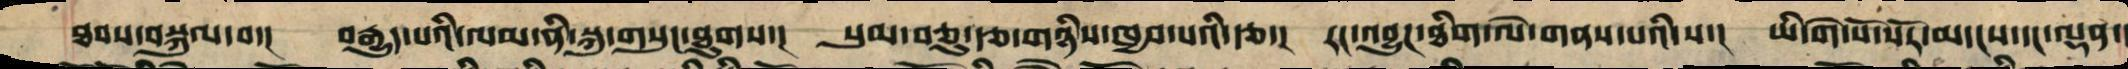ཐབས་བསྐུལ་བ་། བརྒྱུད་པའི་ལམ་ནི་སྐུ་གསུང་ཐུགས་། སུམ་ཅུ་རྩ་གཉིས་ཁྱབ་པའི་རྩ་། རང་འབྱུང་ཐིག་ལེ་གནས་པའི་ས་། ཡི་གེ་སོ་སོ་མདངས་དང་ལྡན་།
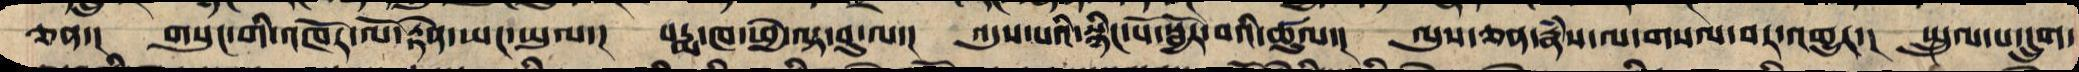ཅན་། གསུང་གི་འཁོར་ལོ་རྟེན་དང་ཡུལ་། པདྨ་ཁ་ཕྱེ་ལྟ་བུ་ལ་། འདུས་པའི་སྙིང་པོ་སྦྱོར་བའི་ཚུལ་། ལུས་ཅན་རྣཾས་གསལ་བར་འགྱུར་།།སྤྲུལ་པ་དྲུག་
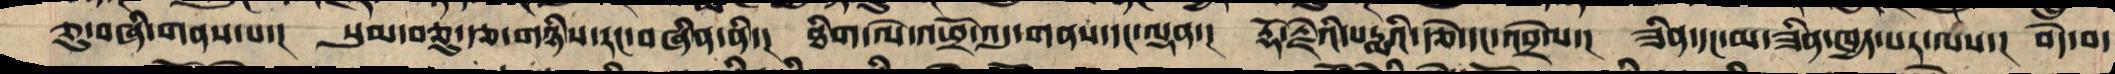ཅུ་བཞི་གནས་པ་། སུམ་ཅུ་རྩ་གཉིས་རང་བཞིན་ནི་། ཐིག་ལེ་འཕྲོ་འདུ་གནས་དང་ལྡན་། རྡོ་རྗེའི་པདྨའི་རྩེ་དང་འབྲེལ་། ཟིན་དང་མ་ཟིན་ཁྱད་པར་ལས་། བདེ་བ་
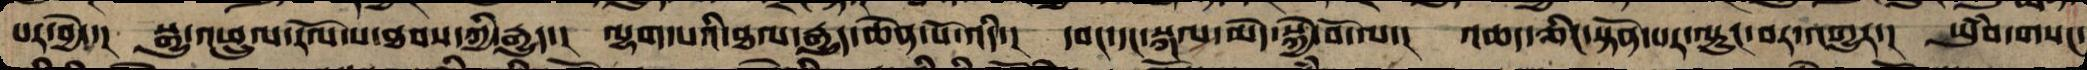པར་བྱེད་། སྒྱུ་འཕྲུལ་རོལ་པ་ཐབས་ཀྱི་རྒྱུད་། ལྷག་པའི་ཐལ་རྒྱུད་ཆེན་པོ་འདི་། དབང་དང་སྐལ་མེད་སྐྱེ་བོ་ལ་། འཆད་ཅིང་སྟོན་པ་ལྟུང་བར་འགྱུར་། ཡུཾབ་གསང་
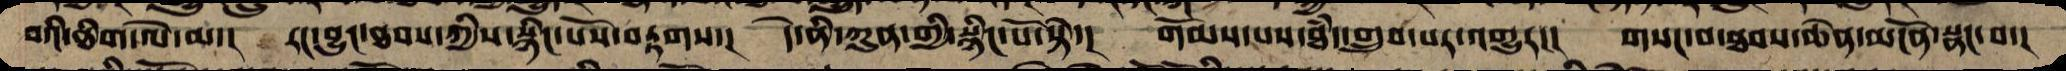བའི་ཐིག་ལེ་ལ་། རང་བྱུང་ཐབས་ཀྱི་སྙིང་པོས་བརྟགས་། དེ་ནི་ཀུན་གྱི་སྙིང་པོ་སྟེ་། གོམས་པས་ཐཾད་གྲུབ་པར་འགྱུར་། གསང་བ་ཐབས་ཆེན་མངོན་སྣང་བ་།
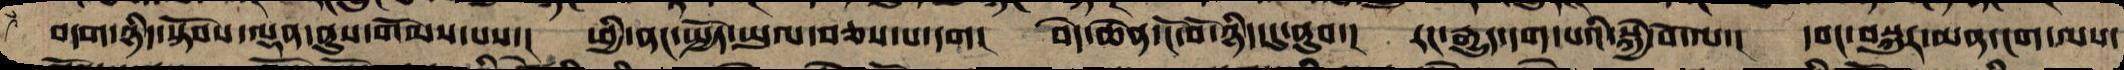བདག་ཉིད་སྟོབས་ལྡན་ནུས་གོམས་པས་། ཕྱི་ནང་སྤྱོད་ཡུལ་བཅས་པ་དག། བདེ་ཆེན་ངོ་བོ་ཉིད་དུ་ནུབ་། རང་རྒྱུད་དག་པའི་སྐྱེ་བོ་ལ་། དབང་བསྐུར་མན་ངག་ལས་
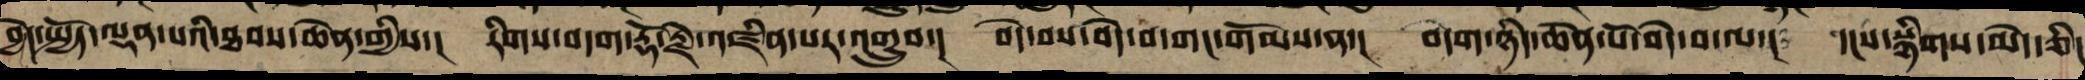བྱེད་སྤྱོད་ལྡན་པའི་ཐབས་ཆེན་གྱིས་། རིགས་བདག་རྡོ་རྗེ་འཛིན་པ་འགྲུབ་། བདེ་བས་བདེ་བ་གང་གོམས་ན་། བདག་ཉིད་ཆེན་པོ་བདེ་བ་ལ་། དངས་སྙིགས་མེད་ཅིང
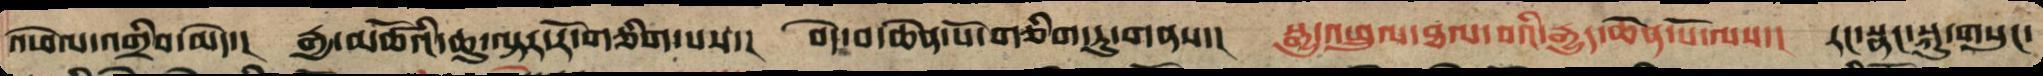འཕེལ་འགྲིབ་མེད་། རྒྱ་མཚོའི་ཆུ་ལྟར་རོ་གཅིག་པས་། བདེ་བ་ཆེན་པོ་གཅིག་ཏུ་གནས་། སྒྱུ་འཕྲུལ་ཐལ་བའི་རྒྱུད་ཆེན་པོ་ལས་། རང་སྣང་སྐུ་གསུང་
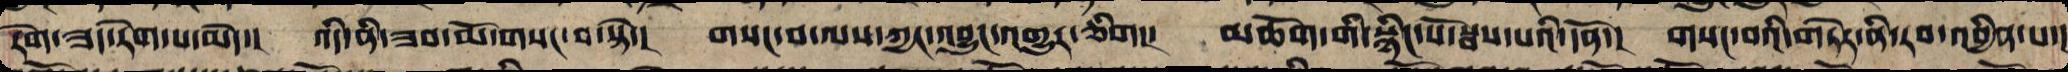རེག་ཟད་རེག་པ་མེད་། འདི་ནི་ཟབ་མོ་གསང་བ་སྟེ་། གསང་བ་ལས་ཀྱང་འབྱུང་འགྱུར་ཞིང་་། མཆོག་གི་སྙིང་པོ་སྦས་པའི་དོན་། གསང་བའི་གཏེར་ནི་རབ་འབྱིན་པ་།
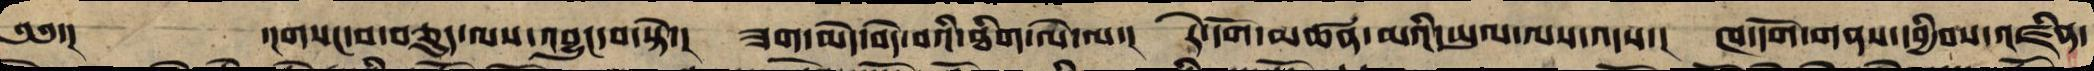༄༅་། ་།གསང་བ་བཅུད་ལས་འབྱུང་བ་སྟེ་། ཟག་པ་མེད་པའི་ཐིག་ལེ་ལ་། རེ་དོགས་མཚན་མའི་ཡུལ་ལས་འདས་། ཁ་དོག་གནས་དབྱིབས་འཛིན་
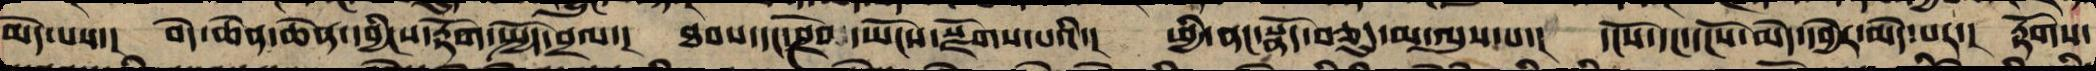མེད་པས་། བདེ་ཆེན་ཆོས་དབྱིངས་རྟོག་དཔྱོད་བྲལ་། ཐབས་དང་ཤྲེབ་ཡོངས་སྫོགས་པའི་། ཕྱི་ནང་སྣོད་བཅུད་མ་ལུས་པ་། དངོས་དང་དངོས་མེད་དབྱེར་མེད་པར་། རྟོགས་
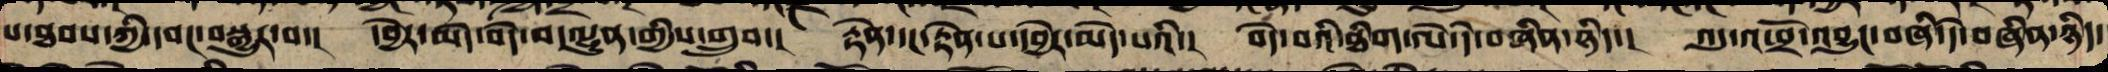པ་ཐབས་ཀྱིས་དབང་བསྒྱུར་བ་། དབྱེར་མེད་བདེ་བ་ལྷུན་གྱིས་གྲུབ་། རྟེན་དང་རྟེན་པ་དབྱེར་མེད་པའི་། བདེ་བའི་ཐིག་ལེ་དེ་བཞིན་ཉིད་། འདུ་འཕྲོ་འབྱུང་བཞི་དེ་བཞིན་ཉིད་
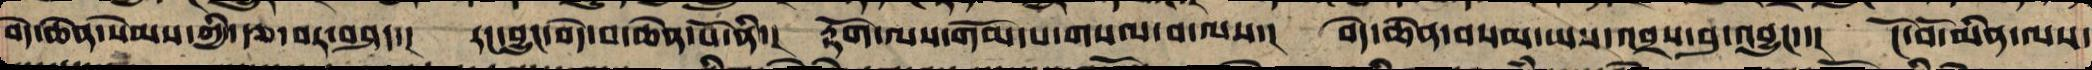བདེ་ཆེན་སེམས་ཀྱི་རྩ་བར་བཤད་། རང་བྱུང་བདེ་བ་ཆེན་པོ་ནི་། རྟོགས་ལས་གོམས་པ་གསལ་བ་ལས་། བདེ་ཆེན་བསམ་ཡས་འབྲས་བུ་འབྱུང་་། ངོ་བོ་མིན་ལས་
